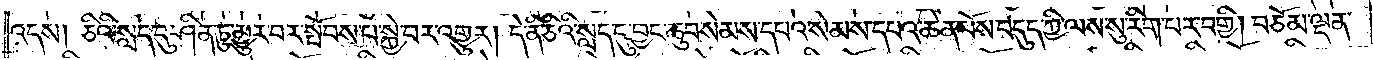འདས། ཅིའི་སླད་དུ་ཤིན་ཏུ་མྱུར་བར་སྤོབས་པ་སྐྱེ་བར་འགྱུར། དེ་ནི་ཅིའི་སླད་དུ་བྱང་ཆུབ་སེམས་དཔའ་སེམས་དཔའ་ཆེན་པོས་བདུད་ཀྱི་ལས་སུ་རིག་པར་བགྱི། བཅོམ་ལྡན་
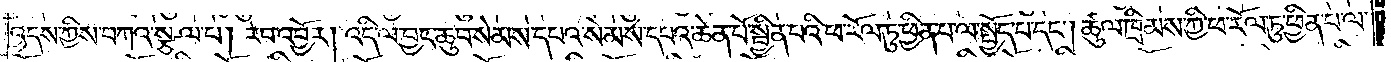འདས་ཀྱིས་བཀའ་སྩལ་པ། རབ་འབྱོར། འདི་ལ་བྱང་ཆུབ་སེམས་དཔའ་སེམས་དཔའ་ཆེན་པོ་སྦྱིན་པའི་ཕ་རོལ་ཏུ་ཕྱིན་པ་ལ་སྤྱོད་པ་དང༌། ཚུལ་ཁྲིམས་ཀྱི་ཕ་རོལ་ཏུ་ཕྱིན་པ་ལ་
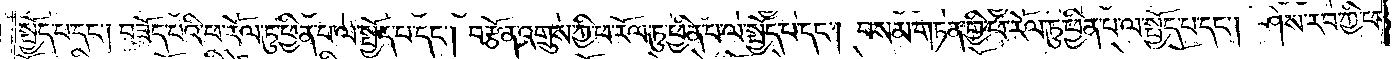སྤྱོད་པ་དང༌། བཟོད་པའི་ཕ་རོལ་ཏུ་ཕྱིན་པ་ལ་སྤྱོད་པ་དང༌། བརྩོན་འགྲུས་ཀྱི་ཕ་རོལ་ཏུ་ཕྱིན་པ་ལ་སྤྱོད་པ་དང༌། བསམ་གཏན་གྱི་ཕ་རོལ་ཏུ་ཕྱིན་པ་ལ་སྤྱོད་པ་དང༌། ཤེས་རབ་ཀྱི་ཕ་
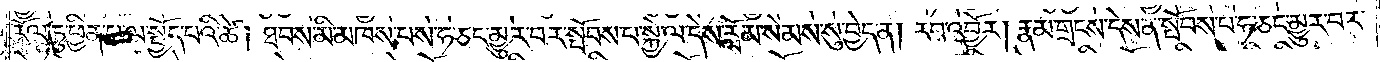རོལ་ཏུ་ཕྱིན་པ་ལ་སྤྱོད་པའི་ཚེ། ཐབས་མི་མཁས་པས་ཧ་ཅང་མྱུར་བར་སྤོབས་པ་སྐྱེ་ལ་དེས་རློམ་སེམས་སུ་བྱེད་ན། རབ་འབྱོར། རྣམ་གྲངས་དེས་ན་སྤོབས་པ་ཧེ་ཅང་མྱུར་བར་
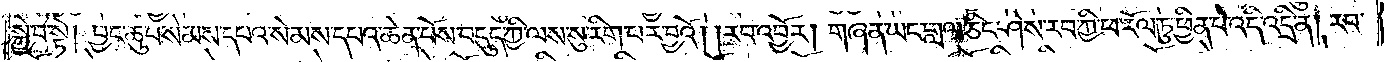སྐྱེ་བ་སྟེ། བྱང་ཆུབ་སེམས་དཔའ་སེམས་དཔའ་ཆེན་པོས་བདུད་ཀྱི་ལས་སུ་རིག་པར་བྱའོ། །རབ་འབྱོར། གཞན་ཡང་གླལ་ཅིང་ཤེས་རབ་ཀྱི་ཕ་རོལ་ཏུ་ཕྱིན་པ་འདྲི་འདྲི་ན། རབ་
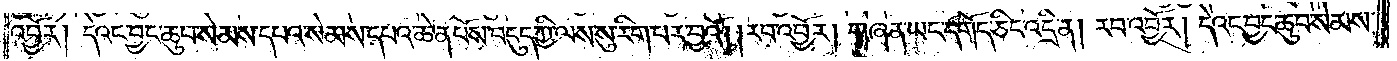འབྱོར། དེའང་བྱང་ཆུབ་སེམས་དཔའ་སེམས་དཔའ་ཆེན་པོས་བདུད་ཀྱི་ལས་སུ་རིག་པར་བྱའོ། །རབ་འབྱོར། གཞན་ཡང་དགོད་ཅིང་འདྲི་ན། རབ་འབྱོར། དེའང་བྱང་ཆུབ་སེམས་
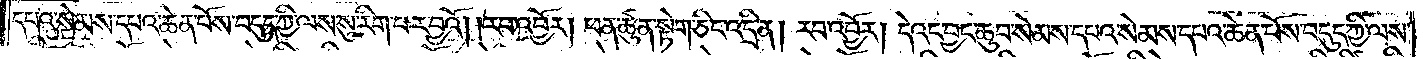དཔའ་སེམས་དཔའ་ཆེན་པོས་བདུད་ཀྱི་ལས་སུ་རིག་པར་བྱའོ། །རབ་འབྱོར། ཕན་ཚུན་སྟེག་ཅིང་འདྲི་ན། རབ་འབྱོར། དེའང་བྱང་ཆུབ་སེམས་དཔའ་སེམས་དཔའ་ཆེན་པོས་བདུད་ཀྱི་ལས་
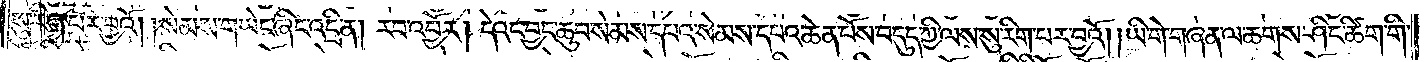སུ་རིག་པར་བྱའོ། །སེམས་གཡེང་ཞིང་འདྲི་ན། རབ་འབྱོར། དེའང་བྱང་ཆུབ་སེམས་དཔའ་སེམས་དཔའ་ཆེན་པོས་བདུད་ཀྱི་ལས་སུ་རིག་པར་བྱའོ། །ཡི་གེ་གཞན་ལ་ཆགས་ཤིང་ཚིག་གི་
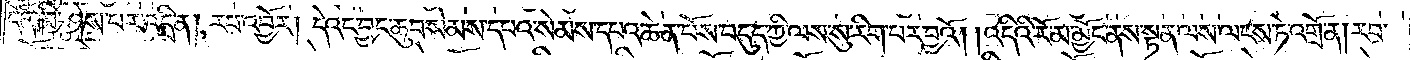དོན་མི་ཤེས་པར་འདྲི་ན། རབ་འབྱོར། དེའང་བྱང་ཆུབ་སེམས་དཔའ་སེམས་དཔའ་ཆེན་པོས་བདུད་ཀྱི་ལས་སུ་རིག་པར་བྱའོ། །འདིའི་རོམ་མྱོང་ནས་སྟན་ལས་ལངས་ཏེ་འགྲོ་ན། རབ་
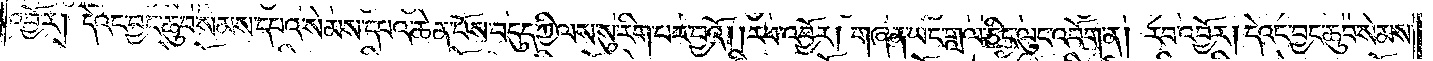འབྱོར། དེའང་བྱང་ཆུབ་སེམས་དཔའ་སེམས་དཔའ་ཆེན་པོས་བདུད་ཀྱི་ལས་སུ་རིག་པར་བྱའོ། །རབ་འབྱོར། གཞན་ཡང་གླལ་ཅིང་ལུང་འབོག་ན། རབ་འབྱོར། དེའང་བྱང་ཆུབ་སེམས་
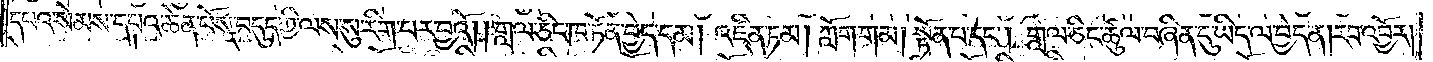དཔའ་སེམས་དཔའ་ཆེན་པོས་བདུད་ཀྱི་ལས་སུ་རིག་པར་བྱའོ། །གླལ་ཅིང་ཁ་ཏོན་བྱེད་དམ། འཛིན་ཏམ། ཀློག་གམ། སྟོན་པ་དང༌། གླལ་ཅིང་ཚུལ་བཞིན་དུ་ཡིད་ལ་བྱེད་ན། རབ་འབྱོར།
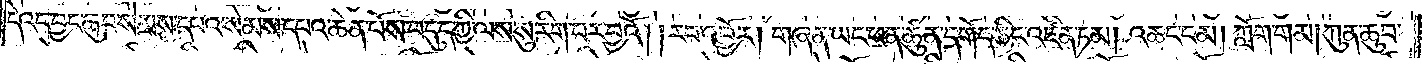དེའང་བྱང་ཆུབ་སེམས་དཔའ་སེམས་དཔའ་ཆེན་པོས་བདུད་ཀྱི་ལས་སུ་རིག་པར་བྱའོ། །རབ་འབྱོར། གཞན་ཡང་ཕན་ཚུན་དགོད་ཅིང་འཛིན་ཏམ། འཆང་ངམ། ཀློག་གམ། ཀུན་ཆུབ་
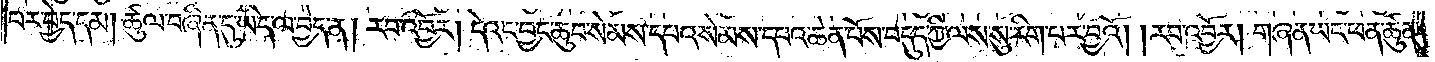པར་བྱེད་དམ། ཚུལ་བཞིན་དུ་ཡིད་ལ་བྱེད་ན། །རབ་འབྱོར། དེའང་བྱང་ཆུབ་སེམས་དཔའ་སེམས་དཔའ་ཆེན་པོས་བདུད་ཀྱི་ལས་སུ་རིག་པར་བྱའོ། །རབ་འབྱོར། གཞན་ཡང་ཕན་ཚུན་
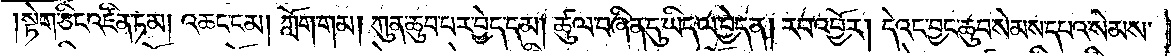སྟེག་ཅིང་འཛིན་ཏམ། འཆང་ངམ། ཀློག་གམ། ཀུན་ཆུབ་པར་བྱེད་དམ། ཚུལ་བཞིན་དུ་ཡིད་ལ་བྱེད་ན། རབ་འབྱོར། དེའང་བྱང་ཆུབ་སེམས་དཔའ་སེམས་
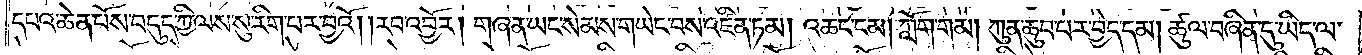དཔའ་ཆེན་པོས་བདུད་ཀྱི་ལས་སུ་རིག་པར་བྱའོ། །རབ་འབྱོར། གཞན་ཡང་སེམས་གཡེང་བས་འཛིན་ཏམ། འཆང་ངམ། ཀློག་གམ། ཀུན་ཆུབ་པར་བྱེད་དམ། ཚུལ་བཞིན་དུ་ཡིད་ལ་
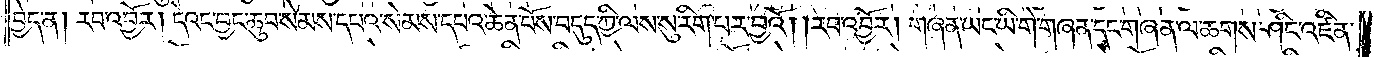བྱེད་ན། རབ་འབྱོར། དེའང་བྱང་ཆུབ་སེམས་དཔའ་སེམས་དཔའ་ཆེན་པོས་བདུད་ཀྱི་ལས་སུ་རིག་པར་བྱའོ། །རབ་འབྱོར། གཞན་ཡང་ཡི་གེ་གཞན་དང་གཞན་ལ་ཆགས་ཤིང་འཛིན་
